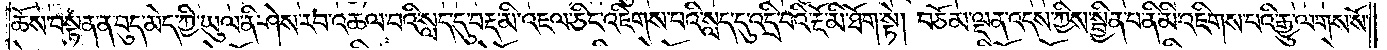ཆོས་བསྟན་ན་བུད་མེད་ཀྱི་ཡུལ་ནི་ཤེས་རབ་འཆལ་བའི་སླད་དུ་བརྡ་མི་འཇལ་ཅིང་འཇིགས་པའི་སླད་དུ་འདྲི་བའི་རྔོ་མི་ཐོག་སྟེ། བཅོམ་ལྡན་འདས་ཀྱིས་སྦྱིན་པ་ནི་མི་འཇིགས་པའི་རྒྱུ་ལགས་སོ་
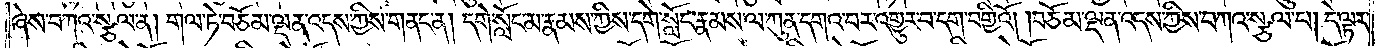ཞེས་བཀའ་སྩལ་ན། གལ་ཏེ་བཅོམ་ལྡན་འདས་ཀྱིས་གནང་ན། དགེ་སློང་མ་རྣམས་ཀྱིས་དགེ་སློང་རྣམས་ལ་ཀུན་དགའ་བར་འགྱུར་བ་དག་བགྱིའོ། །བཅོམ་ལྡན་འདས་ཀྱིས་བཀའ་སྩལ་པ། དེ་ལྟར་
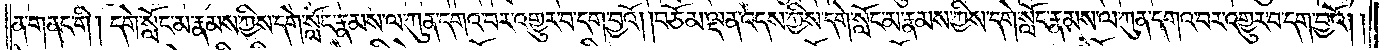ན་གནང་གི། དགེ་སློང་མ་རྣམས་ཀྱིས་དགེ་སློང་རྣམས་ལ་ཀུན་དགའ་བར་འགྱུར་བ་དག་བྱའོ། །བཅོམ་ལྡན་འདས་ཀྱིས་དགེ་སློང་མ་རྣམས་ཀྱིས་དགེ་སློང་རྣམས་ལ་ཀུན་དགའ་བར་འགྱུར་བ་དག་བྱའོ། །
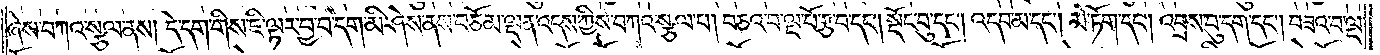ཞེས་བཀའ་སྩལ་ནས། དེ་དག་གིས་ཇི་ལྟར་བྱ་བ་དག་མི་ཤེས་ནས་བཅོམ་ལྡན་འདས་ཀྱིས་བཀའ་སྩལ་པ། བཅའ་བ་ལྔ་པོ་རྩ་བ་དང༌། སྡོང་བུ་དང༌། འདབ་མ་དང༌། མེ་ཏོག་དང༌། འབྲས་བུ་དག་དང༌། བཟའ་བ་ལྔ་
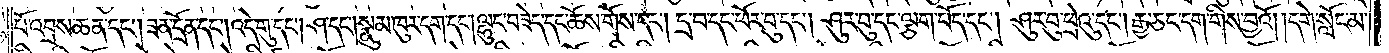པོ་འབྲས་ཆན་དང༌། ཟན་དྲོན་དང༌། འདེ་གུ་དང༌། ཤ་དང༌། སྣུམ་ཁུར་དག་དང༌། ལྷུང་བཟེད་དང་ཆོས་གོས་དང༌། དྲ་བ་དང་ཕོར་བུ་དང༌། ཤུར་བུ་དང་ལྕག་ཕོད་དང༌། ཤུར་བུ་ཕྲེའུ་དང༌། རྒྱ་ཅང་དག་གིས་བྱའོ། །དགེ་སློང་མ་
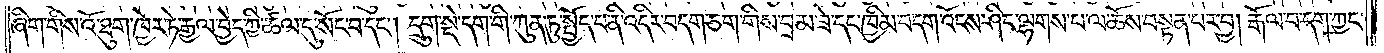ཞིག་གིས་འོ་ཐུག་ཁྱེར་ཏེ་རྒྱལ་བྱེད་ཀྱི་ཚལ་དུ་སོང་བ་དང༌། དྲུག་སྡེ་དག་གི་ཀུན་ཏུ་སྤྱོད་པ་ནི་འདིར་བདག་ཅག་གིས་བྲམ་ཟེ་དང་ཁྱིམ་བདག་འོངས་ཤིང་ལྷགས་པ་ལ་ཆོས་བསྟན་པར་བྱ། རྒོལ་བ་དག་ཀྱང་
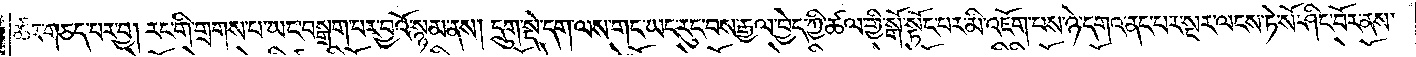ཚར་གཅད་པར་བྱ། རང་གི་གྲགས་པ་ཡང་བསྒྲག་པར་བྱའོ་སྙམ་ནས། དྲུག་སྡེ་དག་ལས་གང་ཡང་རུང་བས་རྒྱལ་བྱེད་ཀྱི་ཚལ་གྱི་སྒོ་སྟོང་པར་མི་འཇོག་པས་ཉེ་དགའ་ནང་པར་སྔར་ལངས་ཏེ་སོ་ཤིང་བོར་ནས་
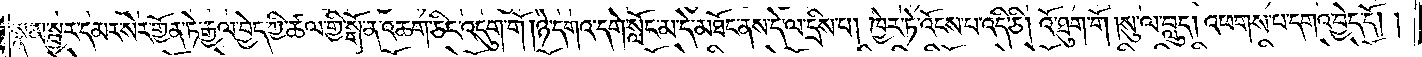སྣམ་སྦྱར་དམར་སེར་གྱོན་ཏེ་རྒྱལ་བྱེད་ཀྱི་ཚལ་གྱི་སྒོ་ན་འཆག་ཅིང་འདུག་གོ །ཉེ་དགའ་དགེ་སློང་མ་དེ་མཐོང་ནས་དེ་ལ་དྲིས་པ། ཁྱེར་ཏེ་འོངས་པ་འདི་ཅི། འོ་ཐུག་གོ །སུ་ལ་བླུད། འཕགས་པ་དགའ་བྱེད་དོ། །
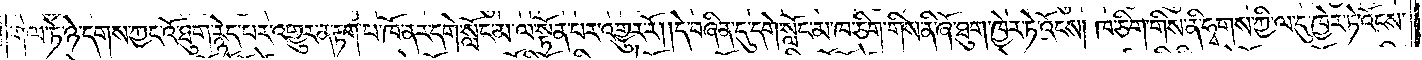གལ་ཏེ་ཉེ་དགས་ཀྱང་འོ་ཐུག་རྙེད་པར་འགྱུར་ན་རྟག་པ་ཁོ་ནར་དགེ་སློང་མ་ལ་སྟོན་པར་འགྱུར་རོ། །དེ་བཞིན་དུ་དགེ་སློང་མ་ཁ་ཅིག་གིས་ནི་ཞོ་ཐུག་ཁྱེར་ཏེ་འོངས། ཁ་ཅིག་གིས་ནི་ཧྭགས་ཀྱི་ལ་དུ་ཁྱེར་ཏེ་འོངས་
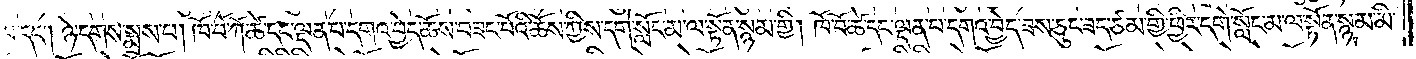པ་དང༌། ཉེ་དགས་སྨྲས་པ། ཁོ་བོ་ཀོ་ཚེ་དང་ལྡན་པ་དགའ་བྱེད་ཆོས་བཟང་པོའི་ཆོས་ཀྱིས་དགེ་སློང་མ་ལ་སྟོན་སྙམ་གྱི། ཁོ་བོ་ཚེ་དང་ལྡན་པ་དགའ་བྱེད་ཟས་ཅུང་ཟད་ཙམ་གྱི་ཕྱིར་དགེ་སློང་མ་ལ་སྟོན་སྙམ་མི་
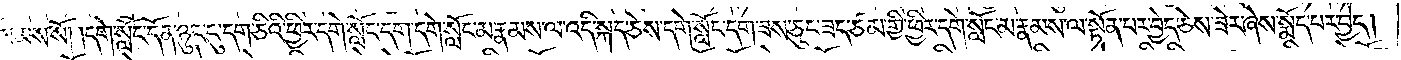སེམས་སོ། །དགེ་སློང་དོན་ཉུང་དུ་དག་ཅིའི་ཕྱིར་དགེ་སློང་དག་དགེ་སློང་མ་རྣམས་ལ་འདི་སྐད་ཅེས་དགེ་སློང་དག་ཟས་ཅུང་ཟད་ཙམ་གྱི་ཕྱིར་དགེ་སློང་མ་རྣམས་ལ་སྟོན་པར་བྱེད་ཅེས་ཟེར་ཞེས་སྨོད་པར་བྱེད།
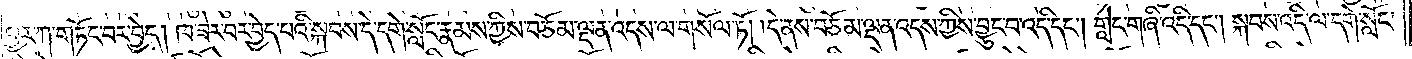ཕྱར་ཀ་གཏོང་བར་བྱེད། ཁ་ཟེར་བར་བྱེད་པའི་སྐབས་དེ་དགེ་སློང་རྣམས་ཀྱིས་བཅོམ་ལྡན་འདས་ལ་གསོལ་ཏོ། །དེ་ནས་བཅོམ་ལྡན་འདས་ཀྱིས་བྱུང་བ་འདི་དང༌། གླེང་གཞི་འདི་དང༌། སྐབས་འདི་ལ་དགེ་སློང་
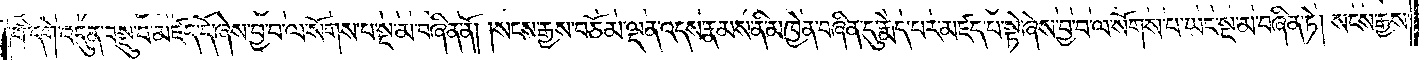གི་དགེ་འདུན་བསྡུ་བ་མཛད་དོ་ཞེས་བྱ་བ་ལ་སོགས་པ་སྔ་མ་བཞིན་ནོ། །སངས་རྒྱས་བཅོམ་ལྡན་འདས་རྣམས་ནི་མཁྱེན་བཞིན་དུ་རྨེད་པར་མཛད་པ་སྟེ་ཞེས་བྱ་བ་ལ་སོགས་པ་ཡང་སྔ་མ་བཞིན་ཏེ། སངས་རྒྱས་
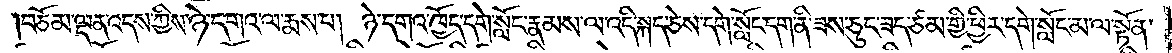བཅོམ་ལྡན་འདས་ཀྱིས་ཉེ་དགའ་ལ་རྨས་པ། ཉེ་དགའ་ཁྱོད་དགེ་སློང་རྣམས་ལ་འདི་སྐད་ཅེས་དགེ་སློང་དག་ནི་ཟས་ཅུང་ཟད་ཙམ་གྱི་ཕྱིར་དགེ་སློང་མ་ལ་སྟོན་
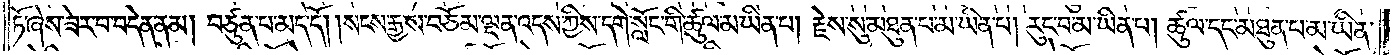ཏོ་ཞེས་ཟེར་བ་བདེན་ནམ། བཙུན་པ་མད་དོ། །སངས་རྒྱས་བཅོམ་ལྡན་འདས་ཀྱིས་དགེ་སློང་གི་ཚུལ་མ་ཡིན་པ། རྗེས་སུ་མཐུན་པ་མ་ཡིན་པ། རུང་བ་མ་ཡིན་པ། ཚུལ་དང་མཐུན་པ་མ་ཡིན་
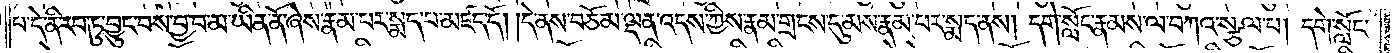པ་དེ་ནི་རབ་ཏུ་བྱུང་བས་བྱ་བ་མ་ཡིན་ནོ་ཞེས་རྣམ་པར་སྨད་པ་མཛད་དོ། །དེ་ནས་བཅོམ་ལྡན་འདས་ཀྱིས་རྣམ་གྲངས་དུ་མས་རྣམ་པར་སྨད་ནས། དགེ་སློང་རྣམས་ལ་བཀའ་སྩལ་པ། དགེ་སློང་
